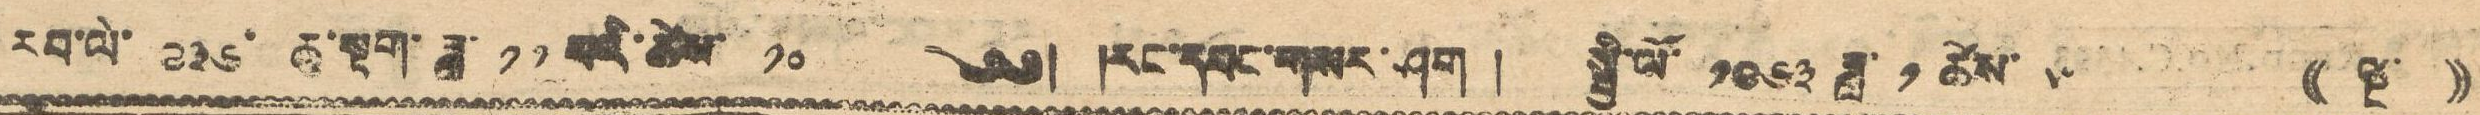རབ་ལོ་ ༩༣༦ ཆུ་སྟག་ཟླ་ ༡༡ པའི་ཚེས་ ༡༠ ༄༅། །རང་དབང་གསར་ཤོག ། སྤྱི་ལོ་ ༡༩༦༣ ཟླ་ ༡ ཚེས་ ༥ (( ལྔ་ ))
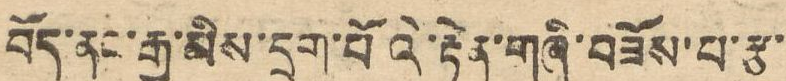བོད་ནང་རྒྱ་མིས་དྲག་པོའི་རྟེན་གཞི་བཟོས་པ་རྩ་
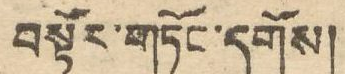བསྟོར་གཏོང་དགོས།
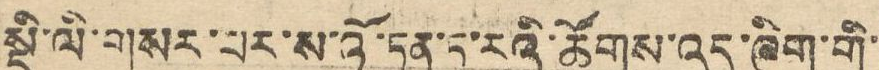སྡི་ལི་གསར་པར་ས་འོ་ཏན་ཏ་རའི་ཚོགས་འདུ་ཞིག་གི་
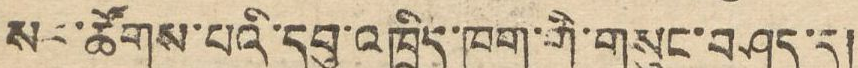སར་ཚོགས་པའི་དབུ་འཁྲིད་ཁག་གི་གསུངས་བཤད་དུ།
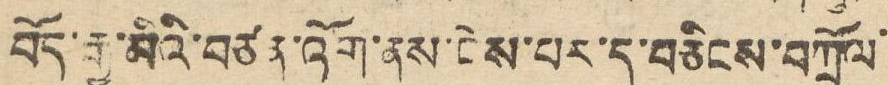བོད་རྒྱ་མིའི་བཙན་འོག་ནས་ངེས་པར་དུ་བཅིངས་བཀྲོལ་
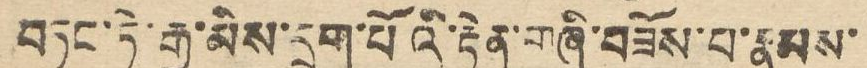བཏང་ཏེ་རྒྱ་མིས་དྲག་པོའི་རྟེན་གཞི་བཟོས་པ་རྣམས་
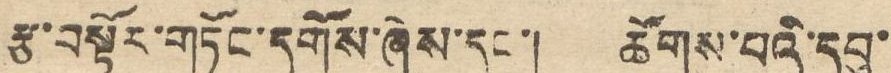རྩ་བསྟོར་གཏོང་དགོས་ཞེས་དང་། ཚོགས་པའི་དབུ་
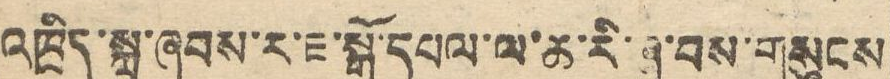འཁྲིད་སྐུ་ཞབས་ར་ཇ་སྒོ་དཔལ་ལ་ཆ་རི་ཞུ་བས་གསུངས
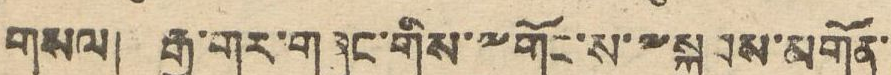གསལ། རྒྱ་གར་གཞུང་གིས་༸གོང་ས་༸སྐྱབས་མགོན་
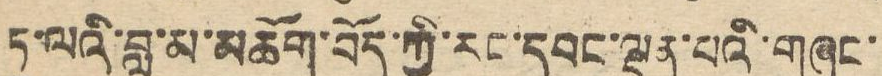ཏཱ་ལའི་བླ་མ་མཆོག་བོད་ཀྱི་རང་དབང་ལྡན་པའི་གཞུང་
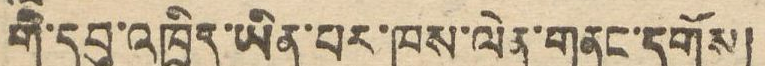གི་དབུ་འཁྲིད་ཡིན་པར་ཁས་ལེན་གནང་དགོས།
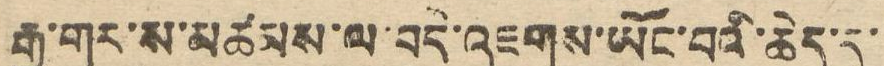རྒྱ་གར་ས་མཚམས་ལ་འདི་འཇགས་ཡོང་བའི་ཆེད་དུ་
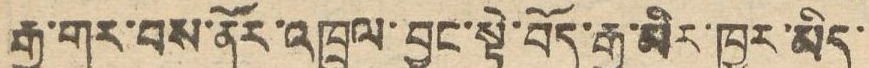རྒྱ་གར་བས་ནོར་འཁྲུལ་བྱུང་སྟེ་བོད་རྒྱ་མིར་ཁྱུར་མིད་
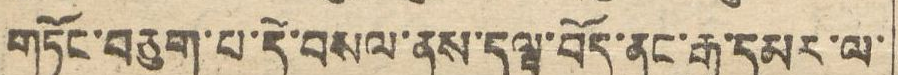གཏོང་བཅུག་པ་དེ་བསམ་ནས་དལྟ་བོད་ནང་རྒྱ་དམར་ལ་
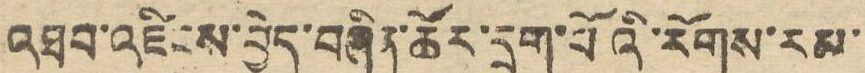འཐབ་འཛིངས་བྱེད་བཞིན་ཚོར་དྲག་པོའི་རོགས་རམ་
